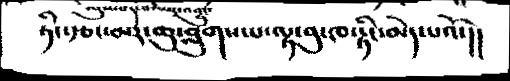ཏིང་རྩང་མར་ཁུ་བླུགས་པ་ལྟ་བུ་ཁ་རྟིང་མེད་པའོ་།།
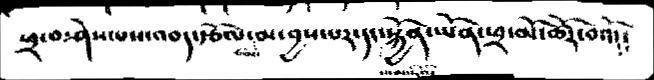ཕྲ་བ་ཤེས་པས་འབད་རྩོལ་མ་བྱས་པར་དང་སྐྱོན་ཡོན་ཕྲ་མོ་ཚོར་བའོ༴༴
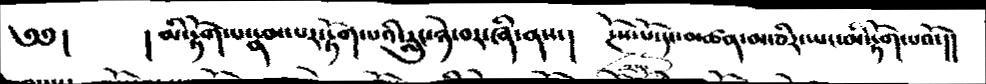༄༅།     །མི་རྟོག་པ་རྣམ་པར་རྟོག་པའི་རླུང་ཉེ་བར་ཞི་ནས་།     རྔོས་པོ་དང་མཚན་མ་ཅིར་ཡང་མི་རྟོག་པའོ་།།
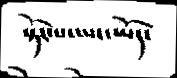སྟོང་པ་ཡང་ཡོད་
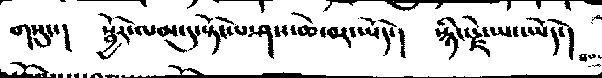གསུང་།  སྦྱོར་ལམ་དུ་སྟོང་ཤས་ཆེ་བར་ཡོད་།    སྙིང་རྗེ་ཡང་ཡོ་།
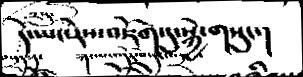དེ་ཡང་རེས་འཇོག་དུ་སྐྱེ་གསུང་།
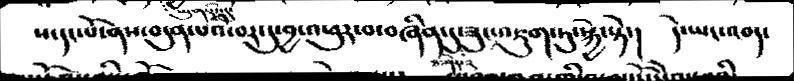ས་དང་པོ་ནས་བདུན་པའི་བར་དུ་བྱ་འཕུར་བ་བཞིནདུ་ཟུང་འཇུག་ཏུ་སྐྱེ་སྟེ་།   དེ་ཡང་འབད་
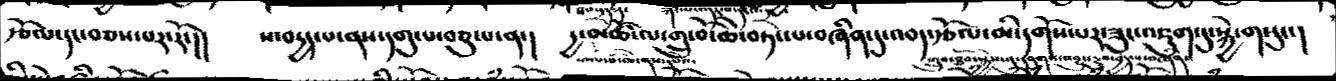རྩོལ་དང་བཅས་པར་རོ་།།  ས་བདྱད་པ་ན་དགུ་པ་བཅུ་པ་ན་།  དྱ་མཚོ་ལ་གྲུ་བོ་ཆེ་བཏང་པ་བཞིན་དུ་འབད་རྩོལ་མི་དགོས་པར་ཟུང་འཇུག་དུ་སྐྱེ་གསུང་།
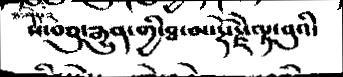ས་བཅུ་རྒྱུན་གྱི་ཐ་མ་རྡོ་རྗེ་ལྟ་བུའི་
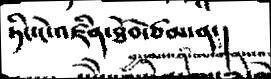ཏིང་ངེ་འཛིན་ཐོབ་ཙམ་ན་།
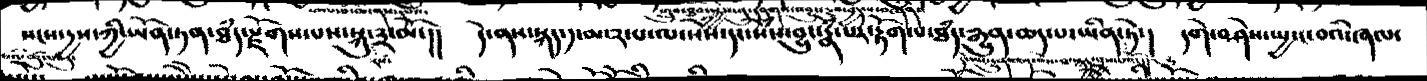སངས་དྱས་ཀྱི་ཡོན་ཏན་ཐཾད་རྫོགས་པས་སྐུ་༣་མོ་།།   དེ་ནས་སྐད་༡་མ་༢་པ་ལ་སེཾས་དང་སེཾས་བྱུང་རྣཾ་པར་རྟོག་པ་ཐཾད་རྒྱུན་ཆད་པ་ཡིན་ཏེ་།   དགེ་བཤེས་སྤྱ་ང་བའི་ཞལ་
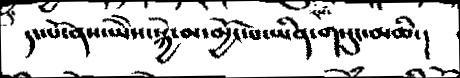དང་པོ་ནས་ཡེེས་སྐྱེ་མ་མྱོང་པ་ཡིན་གསུང་མཆི་།
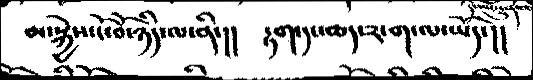མ་སྐྱེས་ངོ་བོ་ཉིད་ལ་ནི་།།   རྟག་དང་ཆད་༢་ག་ལ་ཡོད་།།
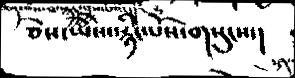ཅེས་ཡེེས་རྙིང་པོས་གསུངས་།
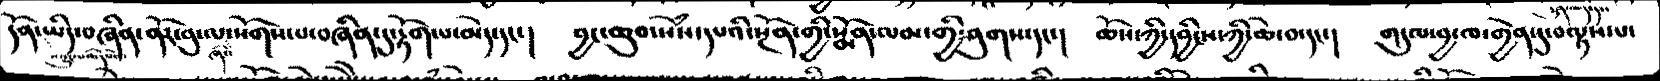དོན་ཡིད་བཞིན་ནོར་བུ་ལ་ལོགས་པ་བཞིན་དུ་རྟོག་པ་མེད་དང་།    བྱང་ཆུབ་སེཾས་དཔའི་སྔོན་གྱི་སྨོན་ལམ་གྱི་ཤུགས་དང་།   ཆོས་ཀྱི་དབྱིངས་ཀྱི་ཆེ་བ་དང་།   གདུལ་བྱ་ཁ་གྱེན་དུ་བལྟས་པ་
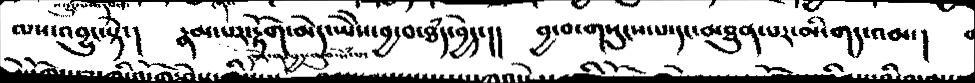ལས་འབྱུང་སྟེ་།   རྣམ་པར་རྟོག་མེད་ཡེེས་བྱ་བ་ཐཾད་བྱེད་།།   བྱ་བ་གསུངས་པ་དང་མཐུན་པར་མི་གད་འམ་།
